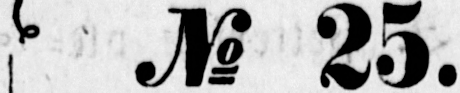No 25.
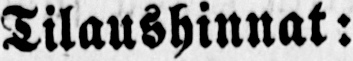Tilaushinnat:
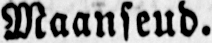Maanseud.
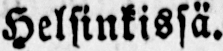Helsinkissä.
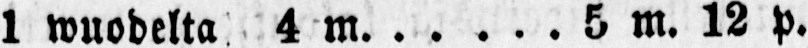1 wuodelta 4 m. . . . . . 5 m. 12 p.
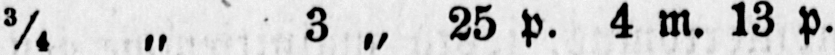¾ „ 3 „ 25 p. 4 m. 13 P.
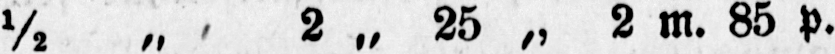½ „ 2 „ 25 „ 2 m. 85 P.
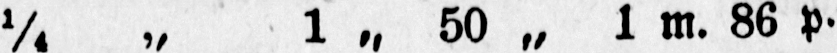¼ „ 1 „ 50 „ 1 m. 86 p.
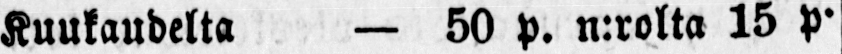Kuukaudelta — 50 p. n:rolta 15 p.
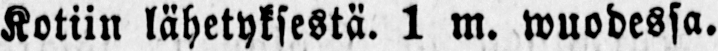Kotiin lähetyksestä. 1 m. wuodessa.
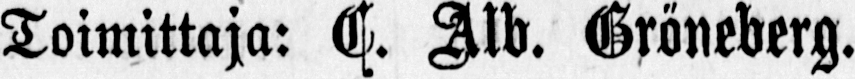Toimittaja: C. Alb. Gröneberg.
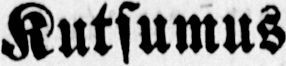Kutsumus
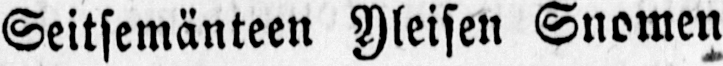Seitsemänteen Yleisen Suomen
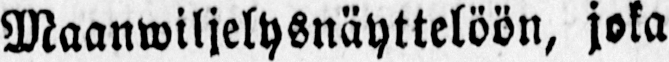Maanwiljelysnäyttelöön, joka
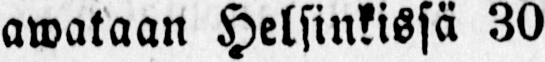awataan Helsingissä 30
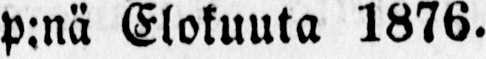p:nä Elokuuta 1876.
